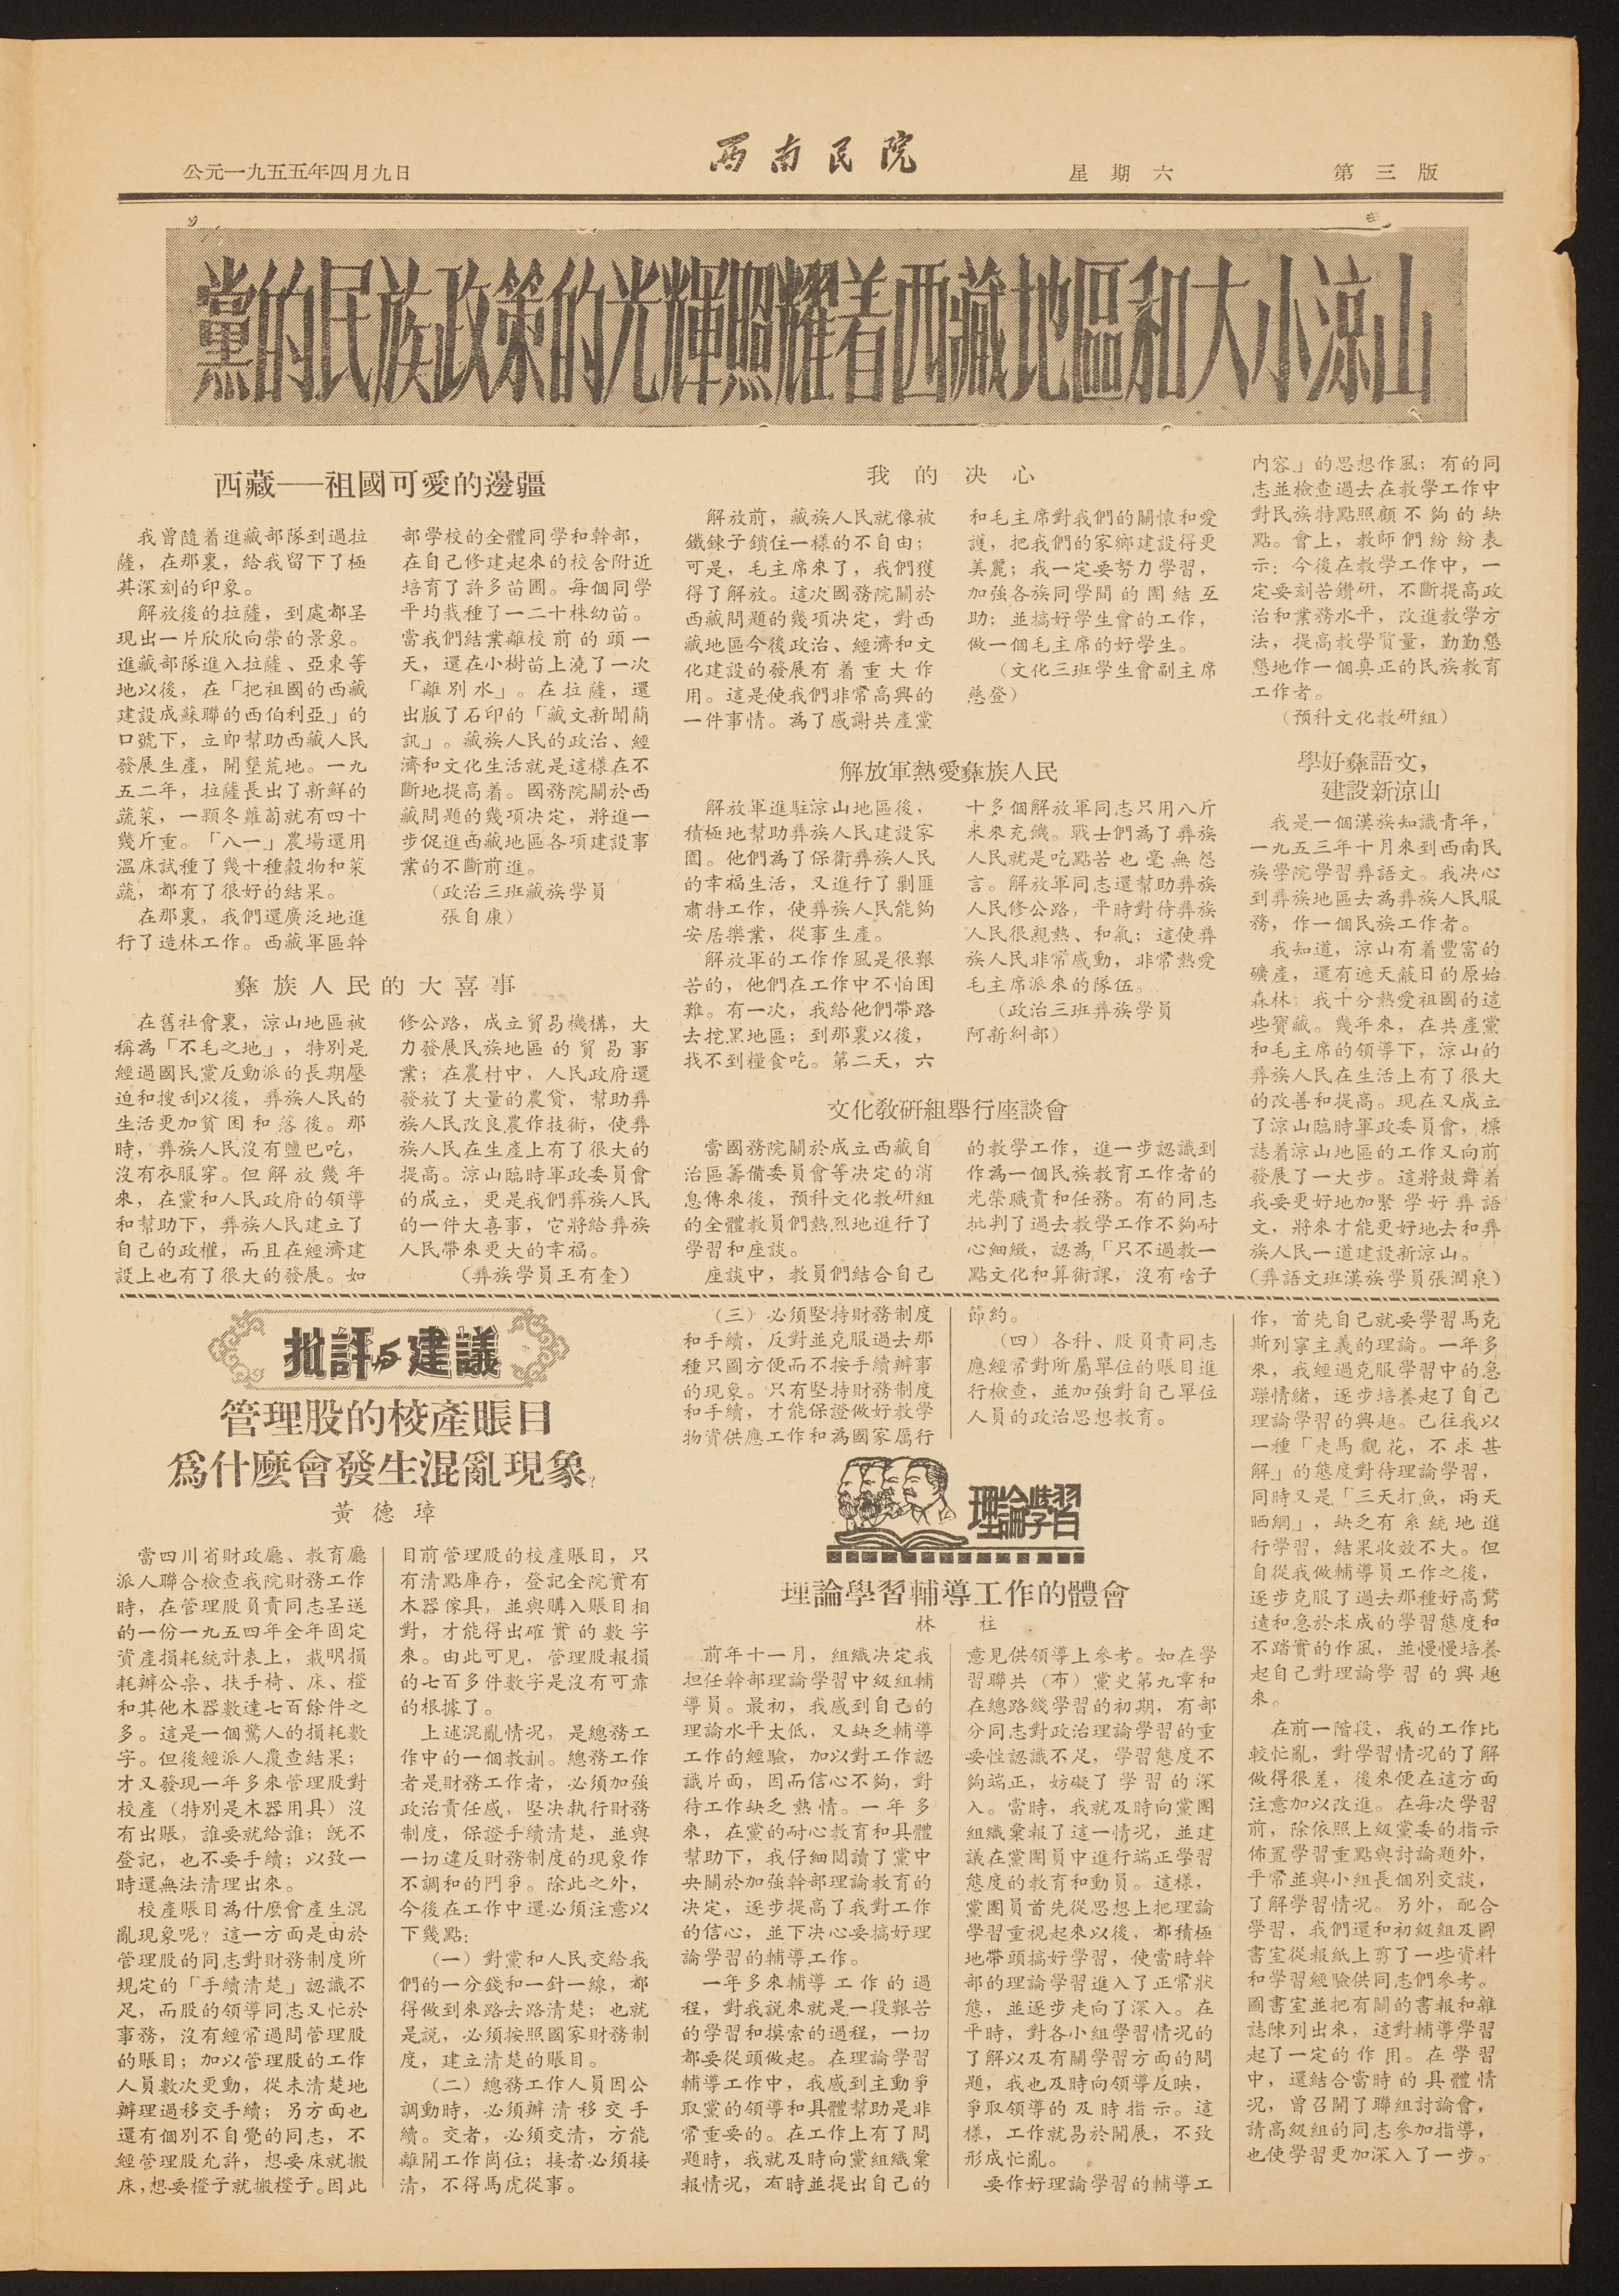公元一九五五年四月九日 西南民院 星期六 第三版
黨的民族政策的光輝照耀着西藏地區和大小涼山
西藏——祖國可愛的邊疆
我曾隨着進藏部隊到過拉
薩，在那裏，給我留下了極
其深刻的印象。
解放後的拉薩，到處都呈
現出一片欣欣向榮的景象。
進藏部隊進入拉薩、亞東等
地以後，在「把祖國的西藏
建設成蘇聯的西伯利亞」的
口號下，立卽幫助西藏人民
發展生產，開墾荒地。一九
五二年，拉薩長出了新鮮的
蔬菜，一顆冬蘿蔔就有四十
幾斤重。「八一」農場還用
溫床試種了幾十種穀物和菜
蔬，都有了很好的結果。
在那裏，我們還廣泛地進
行了造林工作。西藏軍區幹
部學校的全體同學和幹部，
在自己修建起來的校舍附近
培育了許多苗圃。每個同學
平均栽種了一二十株幼苗。
當我們結業離校前的頭一
天，還在小樹苗上澆了一次
「離別水」。在拉薩，還
出版了石印的「藏文新聞簡
訊」。藏族人民的政治、經
濟和文化生活就是這樣在不
斷地提高着。國務院關於西
藏問題的幾項決定，將進一
步促進西藏地區各項建設事
業的不斷前進。
（政治三班藏族學員
張自康）
彝 族 人 民 的 大 喜 事
在舊社會裏，涼山地區被
稱爲「不毛之地」，特別是
經過國民黨反動派的長期壓
迫和搜刮以後，彝族人民的
生活更加貧困和落後。那
時，彝族人民沒有鹽巴吃，
沒有衣服穿。但解放幾年
來，在黨和人民政府的領導
和幫助下，彝族人民建立了
自己的政權，而且在經濟建
設上也有了很大的發展。如
修公路，成立貿易機構，大
力發展民族地區的貿易事
業；在農村中，人民政府還
發放了大量的農貸，幫助彝
族人民改良農作技術，使彝
族人民在生產上有了很大的
提高。涼山臨時軍政委員會
的成立，更是我們彝族人民
的一件大喜事，它將給彝族
人民帶來更大的幸福。
（彝族學員王有奎）
我 的 决 心
解放前，藏族人民就像被
鐵鍊子鎖住一樣的不自由；
可是，毛主席來了，我們獲
得了解放。這次國務院關於
西藏問題的幾項決定，對西
藏地區今後政治、經濟和文
化建設的發展有着重大作
用。這是使我們非常高興的
一件事情。為了感謝共產黨
和毛主席對我們的關懷和愛
護，把我們的家鄉建設得更
美麗；我一定要努力學習，
加強各族同學間的團結互
助；並搞好學生會的工作，
做一個毛主席的好學生。
（文化三班學生會副主席
慈登）
解放軍熱愛彝族人民
解放軍進駐涼山地區後，
積極地幫助彝族人民建設家
園。他們為了保衛彝族人民
的幸福生活，又進行了剿匪
肅特工作，使彝族人民能夠
安居樂業，從事生產。
解放軍的工作作風是很艱
苦的，他們在工作中不怕困
難。有一次，我給他們帶路
去挖黑地區；到那裏以後，
找不到糧食吃。第二天，六
十多個解放軍同志只用八斤
米來充饑。戰士們為了彝族
人民就是吃點苦也毫無怨
言。解放軍同志還幫助彝族
人民修公路，平時對待彝族
人民很親熱、和氣；這使彝
族人民非常感動，非常熱愛
毛主席派來的隊伍。
（政治三班彝族學員
阿新糾部）
文化敎研組舉行座談會
當國務院關於成立西藏自
治區籌備委員會等決定的消
息傳來後，預科文化教研組
的全體教員們熱烈地進行了
學習和座談。
座談中，教員們結合自己
的教學工作，進一步認識到
作為一個民族教育工作者的
光榮職責和任務。有的同志
批判了過去教學工作不夠耐
心細緻，認為「只不過教一
點文化和算術課，沒有啥子
內容」的思想作風；有的同
志並檢查過去在教學工作中
對民族特點照顧不夠的缺
點。會上，教師們紛紛表
示：今後在教學工作中，一
定要刻苦鑽研，不斷提高政
治和業務水平，改進教學方
法，提高教學質量，勤勤懇
懇地作一個真正的民族教育
工作者。
（預科文化教研組）
學好彝語文，
建設新涼山
我是一個漢族知識青年，
一九五三年十月來到西南民
族學院學習彝語文。我決心
到彝族地區去為彝族人民服
務，作一個民族工作者。
我知道，涼山有着豐富的
礦產，還有遮天蔽日的原始
森林，我十分熱愛祖國的這
些寶藏。幾年來，在共產黨
和毛主席的領導下，涼山的
彝族人民在生活上有了很大
的改善和提高。現在又成立
了涼山臨時軍政委員會，標
誌着涼山地區的工作又向前
發展了一大步。這將鼓舞着
我要更好地加緊學好彝語
文，將來才能更好地去和彝
族人民一道建設新涼山。
（彝語文班漢族學員張潤泉）
批評 建議
管理股的校產賬目
爲什麼會發生混亂現象
黃 德 璋
當四川省財政廳、教育廳
派人聯合檢查我院財務工作
時，在管理股負責同志呈送
的一份一九五四年全年固定
資產損耗統計表上，載明損
耗辦公桌、扶手椅、床、橙
和其他木器數達七百餘件之
多。這是一個驚人的損耗數
字。但後經派人覆查結果；
才又發現一年多來管理股對
校產（特別是木器用具）沒
有出賬，誰要就給誰；旣不
登記，也不要手續；以致一
時還無法清理出來。
校產賬目為什麼會產生混
亂現象呢？這一方面是由於
管理股的同志對財務制度所
規定的「手續清楚」認識不
足，而股的領導同志又忙於
事務，沒有經常過問管理股
的賬目；加以管理股的工作
人員數次更動，從未清楚地
辦理過移交手續；另方面也
還有個別不自覺的同志，不
經管理股允許，想要床就搬
床，想要橙子就搬橙子。因此
目前管理股的校產賬目，只
有清點庫存，登記全院實有
木器傢具，並與購入賬目相
對，才能得出確實的數字
來。由此可見，管理股報損
的七百多件數字是沒有可靠
的根據了。
上述混亂情況，是總務工
作中的一個教訓。總務工作
者是財務工作者，必須加強
政治責任感，堅決執行財物
制度，保證手續清楚，並與
一切違反財務制度的現象作
不調和的鬥爭。除此之外，
今後在工作中還必須注意以
下幾點：
（一）對黨和人民交給我
們的一分錢和一針一線，都
得做到來路去路清楚，也就
是說，必須按照國家財務制
度，建立清楚的賬目。
（二）總務工作人員因公
調動時，必須辦清移交手
續。交者，必須交清，方能
離開工作崗位；接者必須接
清，不得馬虎從事。
（三）必須堅持財務制度
和手續，反對並克服過去那
種只圖方便而不按手續辦事
的現象。只有堅持財務制度
和手續，才能保證做好教學
物資供應工作和為國家厲行
節約。
（四）各科、股負責同志
應經常對所屬單位的賬目進
行檢查，並加強對自己單位
人員的政治思想教育。
理論學習
理論學習輔導工作的體會
林 柱
前年十一月，組織決定我
担任幹部理論學習中級組輔
導員。最初，我感到自己的
理論水平太低，又缺乏輔導
工作的經驗，加以對工作認
識片面，因而信心不夠，對
待工作缺乏熱情。一年多
來，在黨的耐心教育和具體
幫助下，我自信閱讀了黨中
央關於加強幹部理論教育的
決定，逐步提高了我對工作
的信心，並下決心要搞好理
論學習的輔導工作。
一年多來輔導工作的過
程，對我說來就是一段艱苦
的學習和摸索的過程，一切
都要從頭做起。在理論學習
輔導工作中，我感到主動爭
取黨的領導和具體幫助是非
常重要的。在工作上有了問
題時，我就及時向黨組織彙
報情況，有時並提出自己的
意見供領導上參考。如在學
習聯共（布）黨史第九章和
在總路綫學習的初期，有部
分同志對政治理論學習的重
要性認識不足，學習態度不
夠端正，妨礙了學習的深
入。黨史，我就及時向黨團
組織彙報了這一情況，並建
議在黨團員中進行端正學習
態度的教育和動員。這樣，
黨團員首先從思想上把理論
學習重視起來以後，都積極
地帶頭搞好學習，使當時幹
部的理論學習進入了正常狀
態，並逐步走向了深入。在
平時，對各小組學習情況的
了解以及有關學習方面的問
題，我也及時向領導反映，
爭取領導的及時指示。這
樣，工作就易於開展，不致
形成忙亂。
要作好理論學習的輔導工
作，首先自己就要學習馬克
思列寧主義的理論。一年多
來，我經過克服學習中的急
躁情緒，逐步培養起了自己
理論學習的興趣。已往我以
一種「走馬觀花，不求甚
解」的態度對待理論學習，
同時又是「三天打魚，兩天
晒網」，缺乏有系統地進
行學習，結果收效不大。但
自從我做輔導員工作之後，
逐步克服了過去那種好高鶩
遠和急於求成的學習態度和
不踏實的作風，並慢慢培養
其自己對理論學習的興趣
來。
在前一階段，我的工作比
較忙亂，對學習情況的了解
做得很差，後來便在這方面
主義加以改進。在每次學習
前，除依照上級黨委的指示
佈置學習重點與討論題外，
平常並與小組長個別交談，
了解學習情況。另外，配合
學習，我們還和初級組及圖
書室從報紙上剪了一些資料
和學習經驗供同志們參考。
圖書室並把有關的書報和雜
誌陳列出來，這對輔導學習
起了一定的作用。在學習
中，還結合當時的具體情
況，曾召開了聯組討論會，
請高級組的同志參加指導，
也使學習更加深入了一步。
